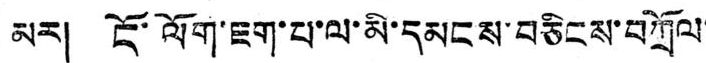མར། ངོ་ལོག་ཇག་པ་ལ་མི་དམངས་བཅིངས་བཀྲོལ་
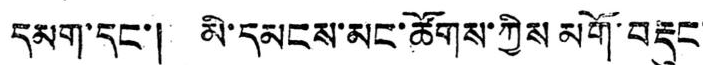དམག་དང་། མི་དམངས་མང་ཚོགས་ཀྱིས མགོ་བརྡུང་
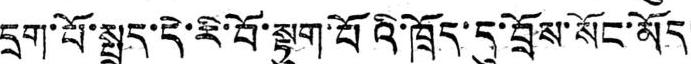དྲག་པོ་སྤྲད་དེ་རི་བོ་སྟུག་པོའི་ཁྲོད་དུ་བྲོས་སོང་མོད།
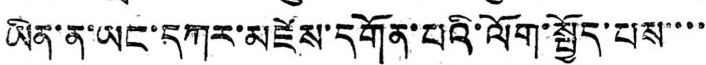ཡིན་ན་ཡང་དཀར་མཛེས་དགོན་པའི་ལོག་སྤྱོད་པས་་་་
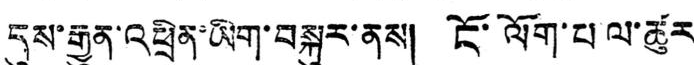དུས་རྒྱུན་འཕྲིན་ཡིག་བསྐུར་ནས། ངོ་ལོག་པ ལ་ཚུར་
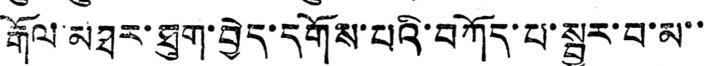རྒོལ་མཐར་ཐུག་བྱེད་དགོས་པའི་བཀོད་པ་སྦྱར་བ་མ་་
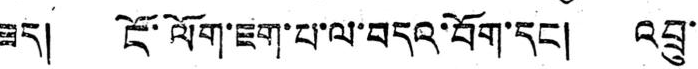ཟད། ངོ་ལོག་ཇག་པ་ལ་བདའ་བོག་དང། འབྲུ་
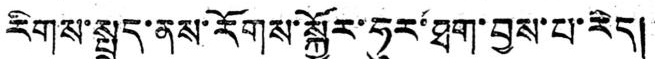རིགས་སྤྲད་ནས་རོགས་སྐྱོར་ཧུར་ཐག་བྱས་པ་རེད།
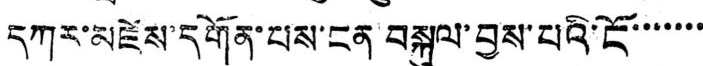དཀར་མཛེས་དགོན་པས་ངན བསྐུལ་བྱས་པའི་ངོ་་་་་་་
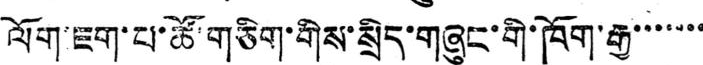ལོག་ཇག་པ་ཚོ་གཅིག་གིས་སྲིད་གཞུང་གི་ཁོག་རྒྱ་་་་་་་
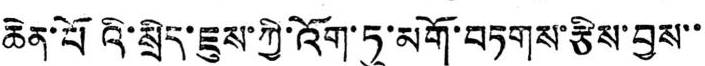ཆེན་པོའི་སྲིད་ཇུས་ཀྱི་འོག་ཏུ་མགོ་བཏགས་རྩིས་བྱས་་
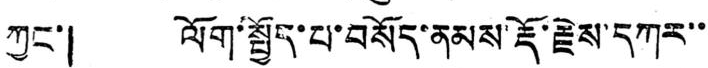ཀྱང་། ལོག་སྤྱོད་པ་བསོད་ནམས་རྡོ་རྗེས་དཀར་་
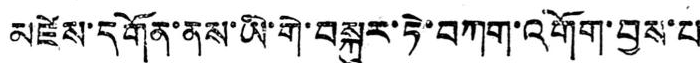མཛེས་དགོན་ནས་ཡི་གེ་བསྐུར་ཏེ་བཀག་འགོག་བྱས་པ་
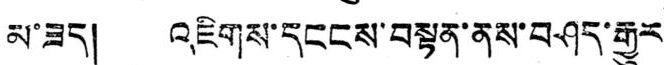མ་ཟད། འཇིགས་དངངས་བསྟན་ནས་བཤད་རྒྱུར།
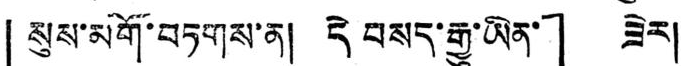「སུས་མགོ་བཏགས་ན། དེ བསད་རྒྱུ་ཡིན་」 ཟེར།
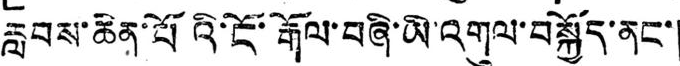རླབས་ཆེན་པོའི་ངོ་རྒོལ་བཞི་ཡི་འགུལ་བསྐྱོད་ནང་།
